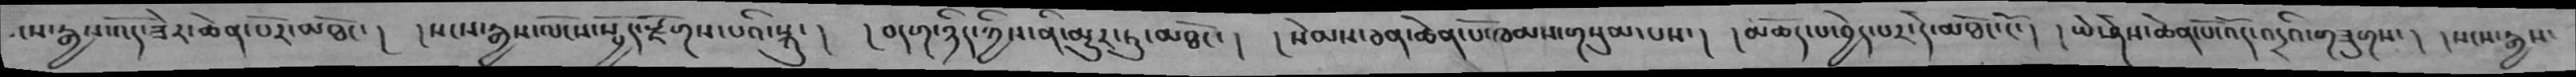སངས་རྒྱས་འོད་ཟེར་ཆེན་པར་མཐོང་།  །སངས་རྒྱས་ལོངས་སྤྱོད་རྫོགས་པའི་སྐུ་།  །བདག་ཉིད་ཀྱིས་ནི་མྱུར་ཏུ་མཐོང་།  །སེམས་ཅན་ཆེན་པོ་ཁམས་གསུམ་པས་།  །མཆོད་པ་བྱེད་པར་དེ་མཐོང་ངོ་།  །ཡེ་ཤེས་ཆེན་པོ་འོད་འདྲའི་གཟུགས་།  །སངས་རྒྱས་
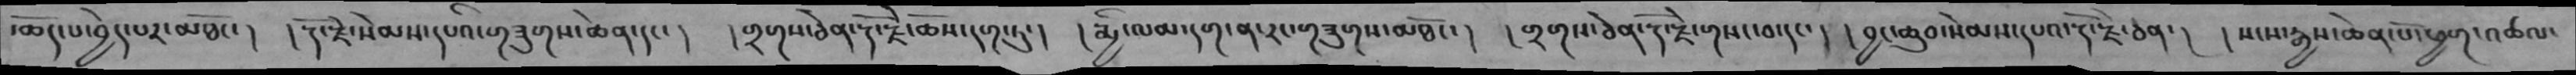་ཆོད་པ་བྱེད་པར་མཐོང་ །  ། རྡོ་རྗེ་སེམས་དཔའི་གཟུགས་ཆེན་དང་ །  ། གྲགས་ཅེན་རྡོ་རྗེ་ཆོས་དག་ཏུ་།  ། རྨྱི་ལམ་དག་ན་རང་གཟུགས་མཐོང་། ། གྲགས་ཅེན་རྡོ་རྗེ་གསང་བ་དང་། ། བྱང་ཆུབ་སེམས་དཔའ་རྡོ་རྗེ་ཅན་། ། སངས་རྒྱས་ཆེན་པོ་ཕྱག་འཚལ་
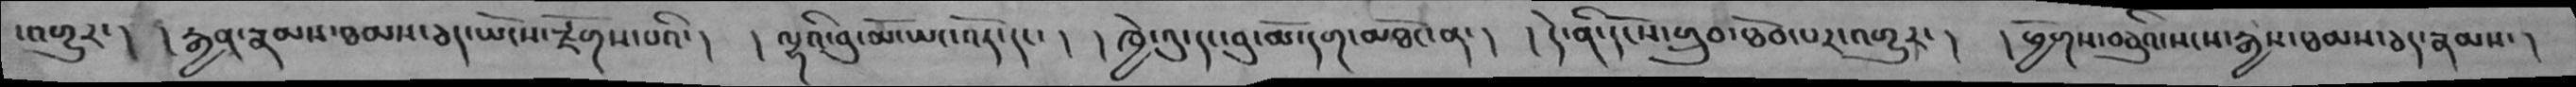་འགྱུར་། ། རྒྱན་རྣམས་ཐམས་ཅད་ཡོངས་རྫོགས་པའི་། ། ལྷའི་བུ་མོ་ཡང་འོད་དང་། ། ཁྱེ་འུ་དང་བུ་མོ་དག་མཐོང་ན་། ། དེ་ནི་དངོས་གྲུབ་ཐོབ་པར་འགྱུར་། ། ཕྱོགས་བཅུའི་སངས་རྒྱས་ཐམས་ཅད་རྣམས་།
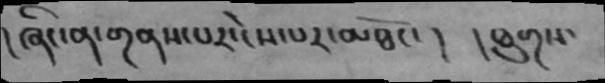། ཞིང་ན་གནས་པར་ངེས་པར་མཐོང་། ། ཐུགས་
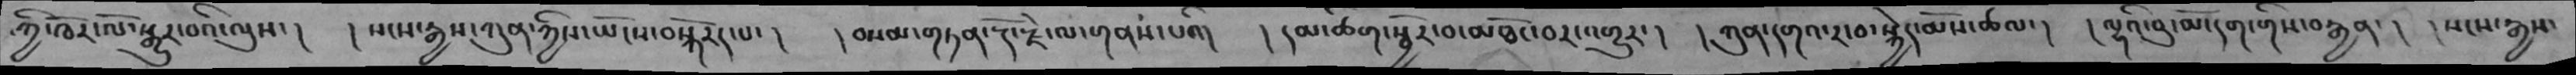ཀྱི་ཁོར་ལོ་སྒྱུར་བའི་ལུས་། ། སངས་རྒྱས་ཀུན་ཀྱིས་ཡོངས་བསྐོརད་པ་། ། བསམ་གཏན་རྡོ་རྗེ་ལ་གནས་པའི། ། དམ་ཚིག་སྦྱོར་བ་མཐོང་བར་འགྱུར་། །ཀུན་དགའ་ར་བ་སྐྱེད་མོས་ཚལ་། ། ལྷའི་བུ་མོ་དག་གིས་བརྒྱན་། ། སངས་རྒྱས་
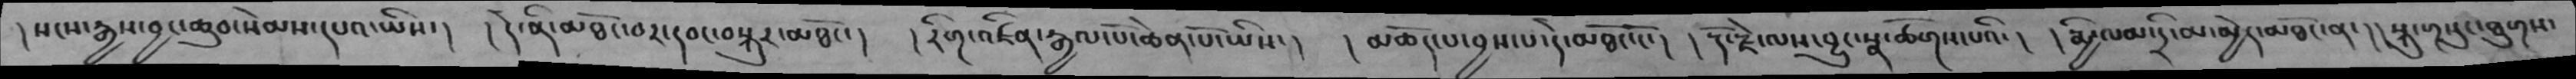། སངས་རྒྱས་བྱང་ཆུབ་སེམས་དཔའ་ཡིས་། ། དེ་ནི་མཐོང་བར་དབང་བསྐུར་མཐོང་། ། རིག་འཛིན་རྒྱལ་པོ་ཆེན་པོ་ཡིས་། ། མཆོད་པ་བྱས་པ་དེ་མཐོང་ངོ་། །རྡོ་རྗེ་ལས་བྱུང་སྣ་ཚོགས་པའི་། ། རྨྱི་ལམ་དྲི་མ་མྱེད་མཐོང་ན་།། སྐུ་གསུང་ཐུགས་
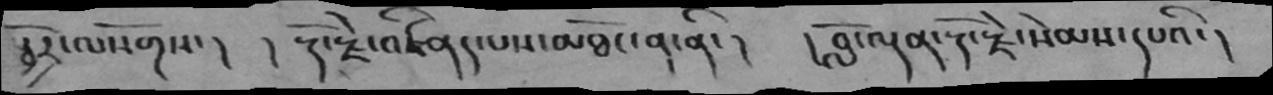སྦྱོར་ལསོགས་། ། རྡོ་རྗེ་འཛིནད་པས་མཐོང་ན་ནི་།  ། བློ་ལྡན་རྡོ་རྗེ་སེམས་དཔའི་།
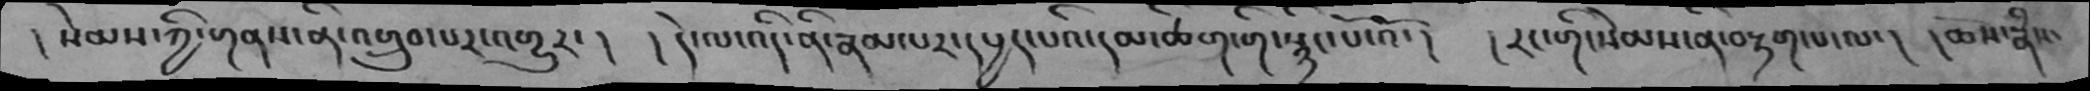། སེམས་ཀྱི་གནས་ནི་འགྲུབ་པར་འགྱུར་། ། དེ་ལ་འདི་ནི་རྣམ་པར་དཔྱད་པའི་དམ་ཚིག་གི་སྙིང་པོ་འོ་། ། རང་གི་སེམས་ནི་བརྟག་པ་ལ་། ། ཆོས་རྣཾས་
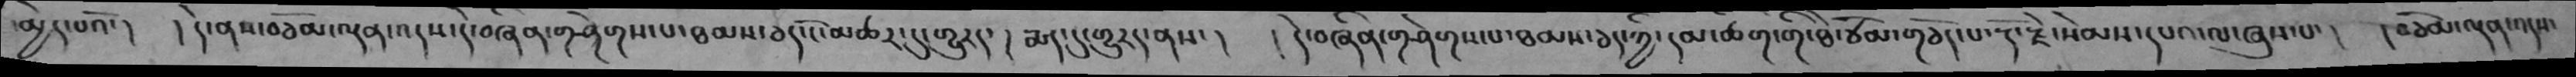མྱེད་པའོ་།  ། དེ་ནས་བཅོམ་ལྡན་འདས་དེ་བཞིན་གཤེགས་པ་ཐམས་ཅད་ངོ་མཚར་དུ་གྱུརད་། རྨད་དུ་གྱུརད་ནས་། ། དེ་བཞིན་གཤེགས་པ་ཐམས་ཅད་ཀྱི་དམ་ཚིག་གི་ཐེ་ཙོམ་གཅོད་པ་རྡོ་རྗེ་སེམས་དཔའ་ལ་ཞུས་པ་། ། བཅོམ་ལྡན་འདས་
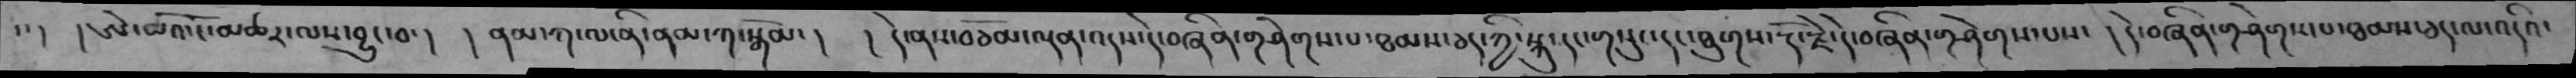་་ ། །ཨེ་མའོ་ངོ་མཚར་ལས་བྱུང་བ་། ། ནམ་ཀ་ལ་ནི་ནམ་ཀ་སྒོམ་། ། དེ་ནས་བཅོམ་ལྡན་འདས་དེ་བཞིན་གཤེགས་པ་ཐམས་ཅད་ཀྱི་སྐུ་དང་གསུང་དང་ཐུགས་རྡོ་རྗེ་དེ་བཞིན་གཤེགས་པས་ ། དེ་བཞིན་གཤེགས་པ་ཐམས་ཅད་ལ་འདིའ་
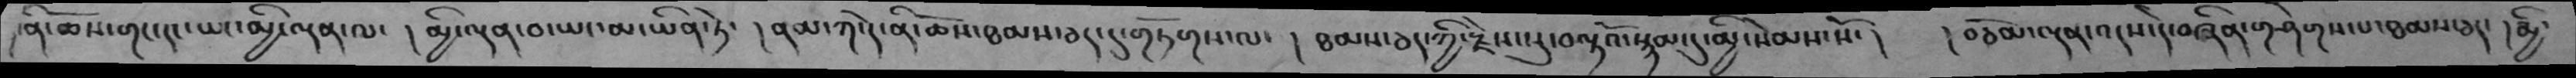ནི་ཆོས་གང་དང་ཡང་མྱི་ལྡན་ལ་  ། མྱི་ལྡན་བ་ཡང་མ་ཡིན་ཏེ་ ། ནམ་ཀ་ནི་ཆོས་ཐམས་ཅད་དུ་གཏོགས་ལ་ ། ཐམས་ཅད་ཀྱི་རྫེས་སུ་བལྟའོ་སྙམ་དུ་མྱི་སེམས་སོ་ ། ། བཅོམ་ལྡན་འདས་དེ་བཞིན་གཤེགས་པ་ཐམས་ཅད་ ། མྱི་
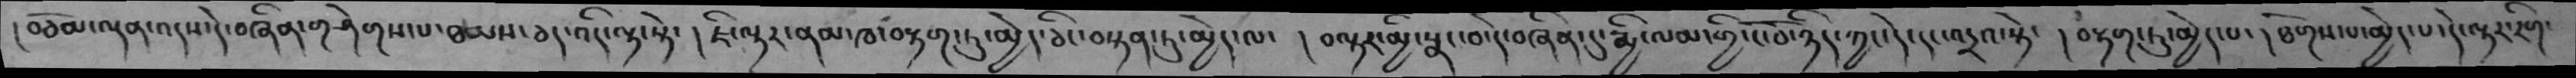།བཅོམ་ལྡན་འདས་དེ་བཞིན་གཤེགས་པ་ཐམས་ཅད་འདི་ལྟ་སྟེ་།  །ཇི་ལྟར་ནམ་ཁ་བརྟག་ཏུ་མྱེད་ཅིང་བསྟན་ཏུ་མྱེད་ལ་།  །བལྟར་མྱི་སྣང་བ་དེ་བཞིན་དུ་རྨྱི་ལམ་གྱི་ངོ་བོ་ཉིད་ཀྱང་དེ་དང་འདྲའ་སྟེ་།  །བརྟག་ཏུ་མྱེད་པ་།  །ཐོགས་པ་མྱེད་པ་དེ་ལྟར་རིག་
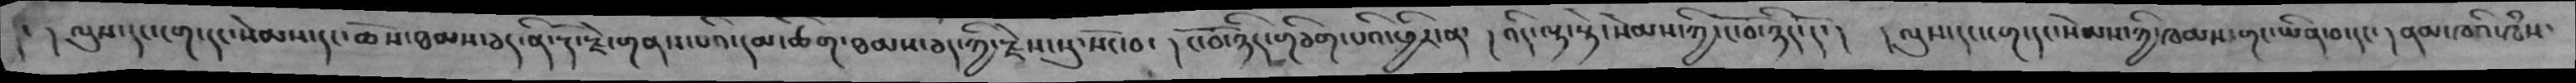། །ལུས་དང་ངག་དང་སེམས་དང་ཆོས་ཐམས་ཅད་ནི་རྡོ་རྗེ་གནས་པའི་དམ་ཚིག་ཐམས་ཅད་ཀྱི་རྗེས་སུ་སོང་བ་།  ངོ་བོ་ཉིད་གཅིག་པའི་ཕྱིར་ན་། འདི་ལྟ་སྟེ་སེམས་ཀྱི་ངོ་བོ་ཉིད་དོ་།  །ལུས་དང་ངག་དང་སེམས་ཀྱི་ཁམས་གང་ཡིན་བ་དང་། ནམ་ཁའི་ཁཾས་
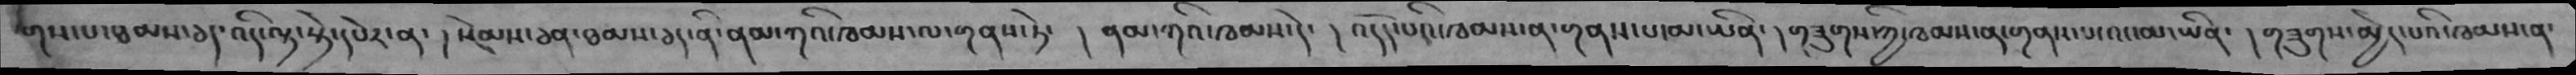གས་པ་ཐམས་ཅད་འདི་ལྟ་སྟེ་དཔེར་ན་།  སེམས་ཅན་ཐམས་ཅད་ནི་ནམ་ཀའི་ཁམས་ལ་གནས་ཏེ་།  ནམ་ཀའི་ཁམས་དེ་། འདོད་པའི་ཁམས་ན་གནས་པ་མ་ཡིན་།  གཟུགས་ཀྱི་ཁམས་ན་གནས་པ་འང་མ་ཡིན་། གཟུགས་མྱེད་པའི་ཁམས་ན་
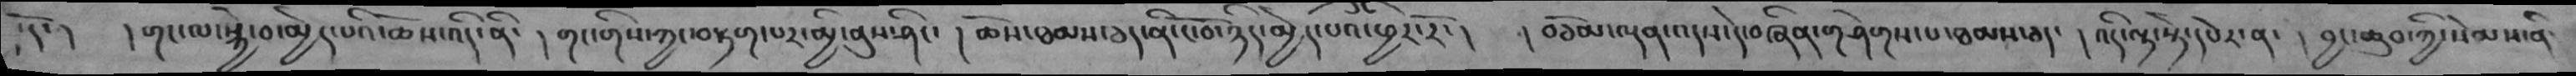་དོ་།   །གང་ལ་སྐྱེ་བ་མྱེད་པའི་ཆོས་འདི་ནི་།  གང་གིས་ཀྱང་བརྟག་པར་མྱི་ནུས་ཤིང་།  ཆོས་ཐམས་ཅད་ནི་ངོ་བོ་ཉིད་མྱེད་པའི་ཕྱིར་རོ་།  །བཅོམ་ལྡན་འདས་དེ་བཞིན་གཤེག་པ་ཐམས་ཅད་ །འདི་ལྟ་སྟེ་དཔེར་ན་། བྱང་ཆུབ་ཀྱི་སེམས་ནི་
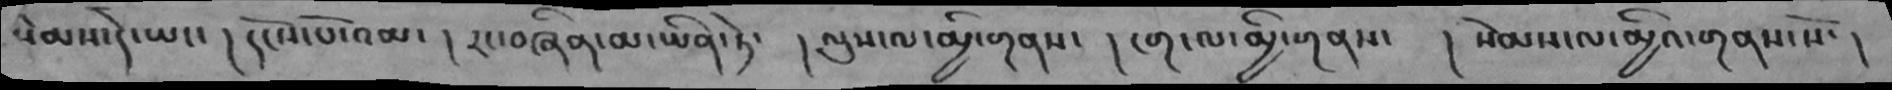སེམས་དེ་ཡང་། དངོས་པོ་འམ་། རང་བཞིན་མ་ཡིན་ཏེ་། ལུས་ལ་མྱི་གནས་། ངག་ལ་མྱི་གནས་ །སེམས་ལ་མྱིའ་གནས་སོ་།
